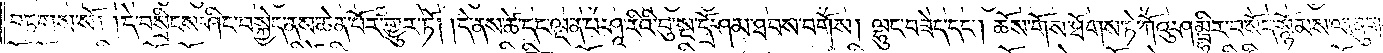བཏགས་སོ། །དེ་བསྲིངས་ཤིང་བསྐྱེད་ནས་ཆེན་པོར་གྱུར་ཏོ། །དེ་ནས་ཚེ་དང་ལྡན་པ་ཤཱ་རིའི་བུ་སྔ་དྲོ་ཤམ་ཐབས་བགོས། ལྷུང་བཟེད་དང༌། ཆོས་གོས་ཐོགས་ཏེ་ཀོའུ་ཤམྦྷིར་བསོད་སྙོམས་ལ་ཞུགས་
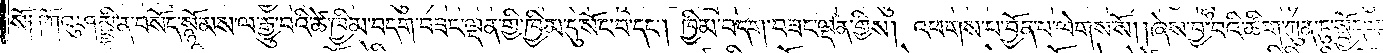སོ༑ ༑ཀོའུ་ཤམྦྷི་ན་བསོད་སྙོམས་ལ་རྒྱུ་བའི་ཚེ་ཁྱིམ་བདག་བཟང་ལྡན་གྱི་ཁྱིམ་དུ་སོང་བ་དང༌། ཁྱིམ་བདག་བཟང་ལྡན་གྱིས། འཕགས་པ་བྱོན་པ་ལེགས་སོ། །ཞེས་བྱ་བའི་ཚིག་ཀུན་ཏུ་སྤྱོད་པས་
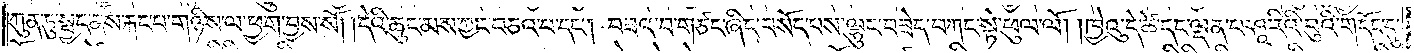ཀུན་ཏུ་སྤྱད་ནས་རྐང་པ་གཉིས་ལ་ཕྱག་བྱས་སོ། །དེའི་ཆུང་མས་ཀྱང་བཅའ་བ་དང༌། བཟའ་བ་གཙང་ཞིང་བསོད་པས་ལྷུང་བཟེད་བཀང་སྟེ་ཕུལ་ལོ། །ཁྱེའུ་དེ་ཚེ་དང་ལྡན་པ་ཤཱ་རིའི་བུའི་གདོང་དུ་
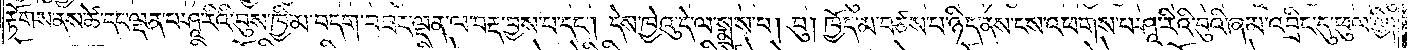རྟོགས་ནས་ཚེ་དང་ལྡན་པ་ཤཱ་རིའི་བུས་ཁྱིམ་བདག་བཟང་ལྡན་ལ་བརྡ་བྱས་པ་དང༌། དེས་ཁྱེའུ་དེ་ལ་སྨྲས་པ། བུ། ཁྱོད་མ་བཙས་པ་ཉིད་ནས་ངས་འཕགས་པ་ཤཱ་རིའི་བུའི་ཞམ་འབྲིང་དུ་ཕུལ་གྱི།
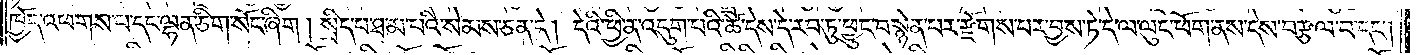ཁྱོད་འཕགས་པ་དང་ལྷན་ཅིག་སོང་ཞིག །སྲིད་པ་ཐ་མ་པའི་སེམས་ཅན་དེ། དེའི་ཕྱི་ན་འདུག་པའི་ཚེ་དེས་དེ་རབ་ཏུ་ཕྱུང་བསྙེན་པར་རྫོགས་པར་བྱས་ཏེ་དེ་ལ་ལུང་ཕོག་ནས་དེས་བརྩལ་བ་དང༌།
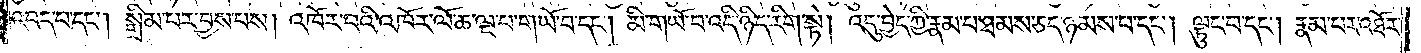འབད་པ་དང༌། སྒྲིམ་པར་བྱས་པས། འཁོར་བའི་འཁོར་ལོ་ཆ་ལྔ་པ་གཡོ་བ་དང༌། མི་གཡོ་བ་འདི་ཉིད་རིག་སྟེ། འདུ་བྱེད་ཀྱི་རྣམ་པ་ཐམས་ཅད་ཉམས་པ་དང༌། ལྟུང་བ་དང༌། རྣམ་པར་འཐོར་
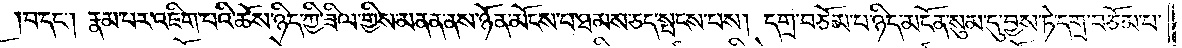བ་དང༌། རྣམ་པར་འཇིག་པའི་ཆོས་ཉིད་ཀྱི་ཟིལ་གྱིས་མནན་ནས་ཉོན་མོངས་པ་ཐམས་ཅད་སྤངས་པས། དགྲ་བཅོམ་པ་ཉིད་མངོན་སུམ་དུ་བྱས་ཏེ་དགྲ་བཅོམ་པ་
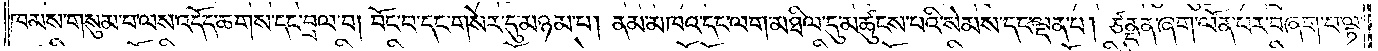ཁམས་གསུམ་པ་ལས་འདོད་ཆགས་དང་བྲལ་བ། བོང་བ་དང་གསེར་དུ་མཉམ་པ། ནམ་མཁའ་དང་ལག་མཐིལ་དུ་མཚུངས་པའི་སེམས་དང་ལྡན་པ། ཙནྡན་ཞག་ལོན་པར་བཞག་པ་ལྟ་
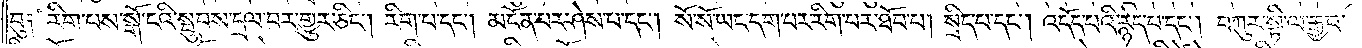བུ༑ རིག་པས་སྒོ་ངའི་སྦུབས་དྲལ་བར་གྱུར་ཅིང༌། རིག་པ་དང༌། མངོན་པར་ཤེས་པ་དང༌། སོ་སོ་ཡང་དག་པར་རིག་པར་ཐོབ་པ། སྲིད་པ་དང༌། འདོད་པའི་རྙེད་པ་དང༌། བཀུར་སྟི་ལ་རྒྱབ་
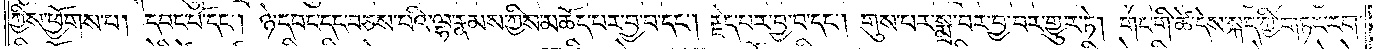ཀྱིས་ཕྱོགས་པ། དབང་པོ་དང༌། ཉེ་དབང་དང་བཅས་པའི་ལྷ་རྣམས་ཀྱིས་མཆོད་པར་བྱ་བ་དང༌། རྗེད་པར་བྱ་བ་དང༌། གུས་པར་སྨྲ་བར་བྱ་བར་གྱུར་ཏེ། གང་གི་ཚེ་དེས་སྐད་ཀྱི་གཏང་རག་
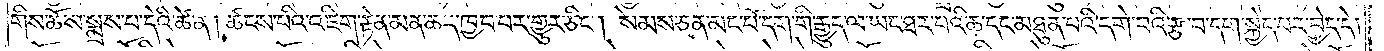གིས་ཆོས་སྨྲས་པ་དེའི་ཚེ་ན། ཚངས་པའི་འཇིག་རྟེན་མན་ཆད་ཁྱབ་པར་གྱུར་ཅིང༌། སེམས་ཅན་མང་པོ་དག་གི་རྒྱུད་ལ་ཡང་ཐར་པའི་ཆ་དང་མཐུན་པའི་དགེ་བའི་རྩ་བ་དག་སྐྱེད་པར་བྱེད་དེ།
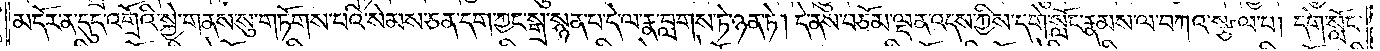མདོར་ན་དུད་འགྲོའི་སྐྱེ་གནས་སུ་གཏོགས་པའི་སེམས་ཅན་དག་ཀྱང་སྒྲ་སྙན་པ་དེ་ལ་རྣ་བླགས་ཏེ་ཉན་ཏེ། དེ་ནས་བཅོམ་ལྡན་འདས་ཀྱིས་དགེ་སློང་རྣམས་ལ་བཀའ་སྩལ་པ། དགེ་སློང་
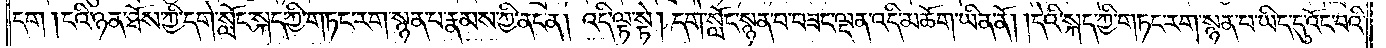དག །ངའི་ཉན་ཐོས་ཀྱི་དགེ་སློང་སྐད་ཀྱི་གཏང་རག་སྙན་པ་རྣམས་ཀྱི་ནང་ན། འདི་ལྟ་སྟེ། དགེ་སློང་སྙན་པ་བཟང་ལྡན་འདི་མཆོག་ཡིན་ནོ། །དེའི་སྐད་ཀྱི་གཏང་རག་སྙན་པ་ཡིད་དུ་འོང་བའི་
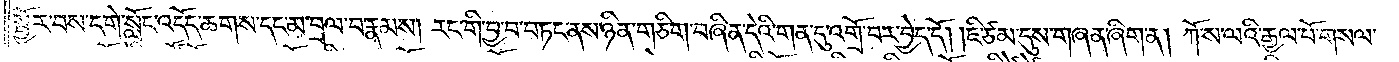སྦྱོར་བས་དགེ་སློང་འདོད་ཆགས་དང་མ་བྲལ་བ་རྣམས། རང་གི་བྱ་བ་བཏང་ནས་ཉིན་གཅིག་བཞིན་དེའི་གན་དུ་འགྲོ་བར་བྱེད་དོ། །ཇི་ཙམ་དུས་གཞན་ཞིག་ན། ཀོ་ས་ལའི་རྒྱལ་པོ་གསལ་
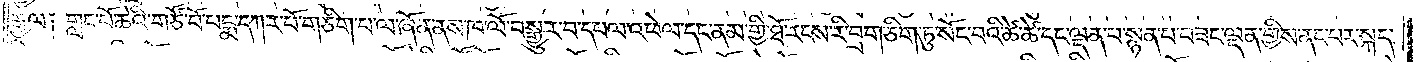རྒྱལ༑ གླང་པོ་ཆེའི་གཙོ་བོ་པདྨ་དཀར་པོ་གཅིག་པ་ལ་ཞོན་ནས་ཁ་ལོ་བསྒྱུར་བ་དཔལ་འཕེལ་དང་ནམ་གྱི་ཐོ་རངས་རི་བྲག་ཅིག་ཏུ་སོང་བའི་ཚེ་ཚེ་དང་ལྡན་པ་སྙན་པ་བཟང་ལྡན་གྱིས་ནང་པར་སྐད་
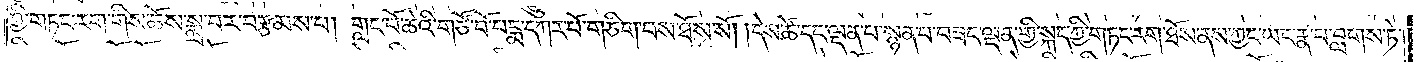ཀྱི་གཏང་རག་གིས་ཆོས་སྨྲ་བར་བརྩམས་པ། གླང་པོ་ཆེའི་གཙོ་བོ་པདྨ་དཀར་པོ་གཅིག་པས་ཐོས་སོ། །དེས་ཚེ་དང་ལྡན་པ་སྙན་པ་བཟང་ལྡན་གྱི་སྐད་ཀྱི་གཏང་རག་ཐོས་ནས་ཀྱང་ཡང་རྣ་བ་བླགས་ཏེ་
